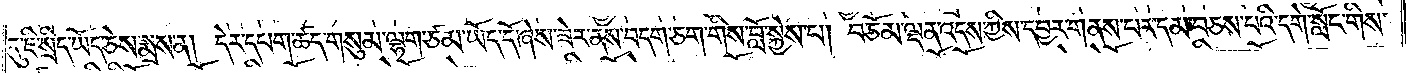དུ་ཇི་སྲིད་ཡོད་ཅེས་སྨྲས་ན། དེར་དཔག་ཚད་གསུམ་ལྷག་ཙམ་ཡོད་དོ་ཞེས་ཟེར་ནས་བདག་ཅག་གིས་བློ་སྐྱེས་པ། བཅོམ་ལྡན་འདས་ཀྱིས་དབྱར་གནས་པར་དམ་བཅས་པའི་དགེ་སློང་གིས་
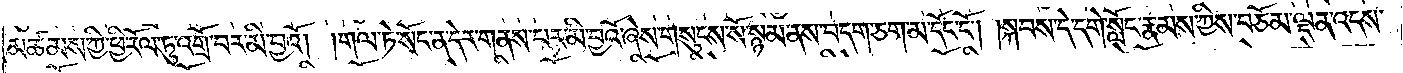མཚམས་ཀྱི་ཕྱི་རོལ་ཏུ་འགྲོ་བར་མི་བྱའོ། །གལ་ཏེ་སོང་ན་དེར་གནས་པར་མི་བྱའོ་ཞེས་གསུངས་སོ་སྙམ་ནས་བདག་ཅག་མ་དོང་ངོ༌། །སྐབས་དེ་དགེ་སློང་རྣམས་ཀྱིས་བཅོམ་ལྡན་འདས་
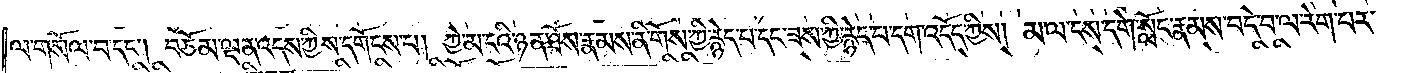ལ་གསོལ་བ་དང༌། བཅོམ་ལྡན་འདས་ཀྱིས་དགོངས་པ། ཀྱེ་མ་ངའི་ཉན་ཐོས་རྣམས་ནི་གོས་ཀྱི་རྙེད་པ་དང་ཟས་ཀྱི་རྙེད་པ་དག་འདོད་ཀྱིས། མ་ལ་ངས་དགེ་སློང་རྣམས་བདེ་བ་ལ་རེག་པར་
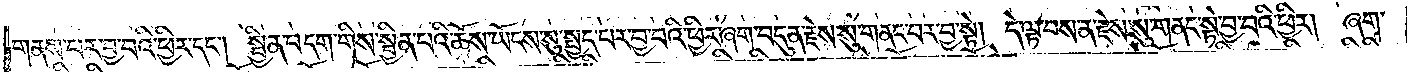གནས་པར་བྱ་བའི་ཕྱིར་དང༌། སྦྱིན་བདག་གིས་སྦྱིན་པའི་ཆོས་ཡོངས་སུ་སྤྱད་པར་བྱ་བའི་ཕྱིར་ཞག་བདུན་རྗེས་སུ་གནང་བར་བྱ་སྟེ། དེ་ལྟ་བས་ན་རྗེས་སུ་གནང་སྟེ་བྱ་བའི་ཕྱིར། ཞག་
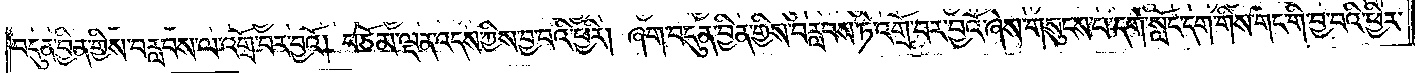བདུན་བྱིན་གྱིས་བརླབས་ལ་འགྲོ་བར་བྱའོ། བཅོམ་ལྡན་འདས་ཀྱིས་བྱ་བའི་ཕྱིར། ཞག་བདུན་བྱིན་གྱིས་བརླབས་ཏེ་འགྲོ་བར་བྱའོ་ཞེས་གསུངས་པ་དགེ་སློང་དག་གིས་གང་གི་བྱ་བའི་ཕྱིར་
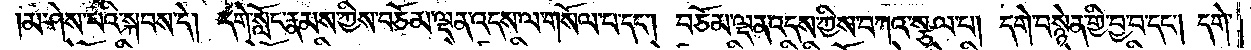མ་ཤེས་པའི་སྐབས་དེ། དགེ་སློང་རྣམས་ཀྱིས་བཅོམ་ལྡན་འདས་ལ་གསོལ་པ་དང༌། བཅོམ་ལྡན་འདས་ཀྱིས་བཀའ་སྩལ་པ། དགེ་བསྙེན་གྱི་བྱ་བ་དང༌། དགེ་
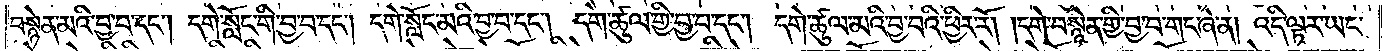བསྙེན་མའི་བྱ་བ་དང༌། དགེ་སློང་གི་བྱ་བ་དང༌། དགེ་སློང་མའི་བྱ་བ་དང༌། དགེ་ཚུལ་གྱི་བྱ་བ་དང༌། དགེ་ཚུལ་མའི་བྱ་བའི་ཕྱིར་རོ། །དགེ་བསྙེན་གྱི་བྱ་བ་གང་ཞེ་ན། འདི་ལྟར་ཡང་
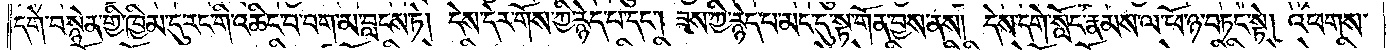དགེ་བསྙེན་གྱི་ཁྱིམ་དུ་རང་གི་འཆིང་བ་བག་མ་བླངས་ཏེ། དེས་དེར་གོས་ཀྱི་རྙེད་པ་དང༌། ཟས་ཀྱི་རྙེད་པ་མང་དུ་སྟ་གོན་བྱས་ནས། དེས་དགེ་སློང་རྣམས་ལ་ཕོ་ཉ་བཏང་སྟེ། འཕགས་
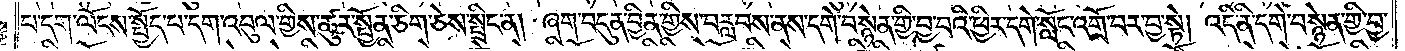པ་དག་ལོངས་སྤྱོད་པ་དག་འབུལ་གྱིས་ཚུར་སྤྱོན་ཅིག་ཅེས་སྤྲིང་ན། ཞག་བདུན་བྱིན་གྱིས་བརླབས་ནས་དགེ་བསྙེན་གྱི་བྱ་བའི་ཕྱིར་དགེ་སློང་འགྲོ་བར་བྱ་སྟེ། འདི་ནི་དགེ་བསྙེན་གྱི་བྱ་
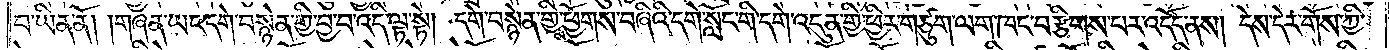བ་ཡིན་ནོ། །གཞན་ཡང་དགེ་བསྙེན་གྱི་བྱ་བ་འདི་ལྟ་སྟེ། དགེ་བསྙེན་གྱིས་ཕྱོགས་བཞིའི་དགེ་སློང་གི་དགེ་འདུན་གྱི་ཕྱིར་གཙུག་ལག་ཁང་བརྩིགས་པར་འདོད་ནས། དེས་དེར་གོས་ཀྱི་
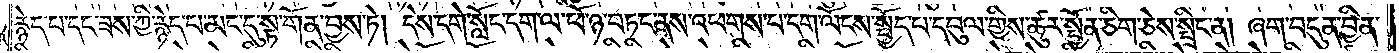རྙེད་པ་དང་ཟས་ཀྱི་རྙེད་པ་མང་དུ་སྟ་གོན་བྱས་ཏེ། དེས་དགེ་སློང་དག་ལ་ཕོ་ཉ་བཏང་ནས་འཕགས་པ་དག་ལོངས་སྤྱོད་པ་དབུལ་གྱིས་ཚུར་སྤྱོན་ཅིག་ཅེས་སྤྲིང་ན། ཞག་བདུན་བྱིན་
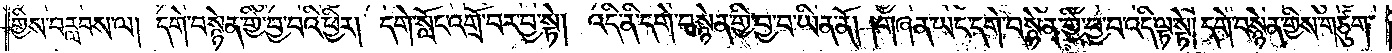གྱིས་བརླབས་ལ། དགེ་བསྙེན་གྱི་བྱ་བའི་ཕྱིར། དགེ་སློང་འགྲོ་བར་བྱ་སྟེ། འདི་ནི་དགེ་བསྙེན་གྱི་བྱ་བ་ཡིན་ནོ། །གཞན་ཡང་དགེ་བསྙེན་གྱི་བྱ་བ་འདི་ལྟ་སྟེ། དགེ་བསྙེན་གྱིས་གཙུག་
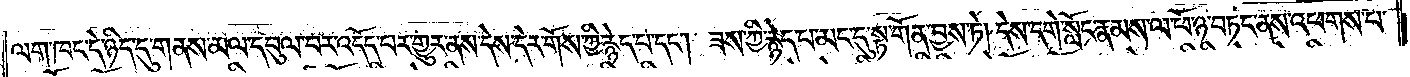ལག་ཁང་དེ་ཉིད་དུ་གནས་མལ་དབུལ་བར་འདོད་པར་གྱུར་ནས་དེས་དེར་གོས་ཀྱི་རྙེད་པ་དང༌། ཟས་ཀྱི་རྙེད་པ་མང་དུ་སྟ་གོན་བྱས་ཏེ། དེས་དགེ་སློང་རྣམས་ལ་ཕོ་ཉ་བཏང་ནས་འཕགས་པ་
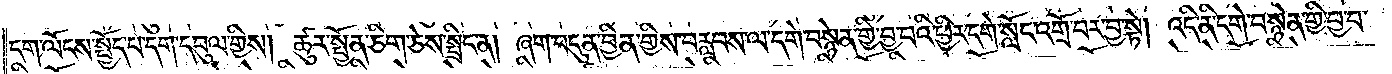དག་ལོངས་སྤྱོད་པ་དག་དབུལ་གྱིས། ཚུར་སྤྱོན་ཅིག་ཅེས་སྤྲིང་ན། ཞག་བདུན་བྱིན་གྱིས་བརླབས་ལ་དགེ་བསྙེན་གྱི་བྱ་བའི་ཕྱིར་དགེ་སློང་འགྲོ་བར་བྱ་སྟེ། འདི་ནི་དགེ་བསྙེན་གྱི་བྱ་བ་
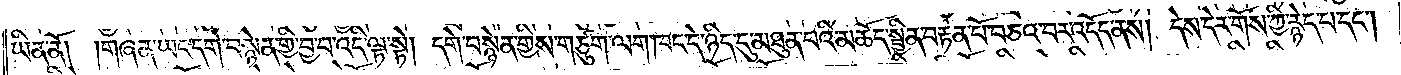ཡིན་ནོ། །གཞན་ཡང་དགེ་བསྙེན་གྱི་བྱ་བ་འདི་ལྟ་སྟེ། དགེ་བསྙེན་གྱིས་གཙུག་ལག་ཁང་དེ་ཉིད་དུ་མཐུན་པའི་མཆོད་སྦྱིན་བརྟན་པོ་བཅའ་བར་འདོད་ནས། དེས་དེར་གོས་ཀྱི་རྙེད་པ་དང༌།
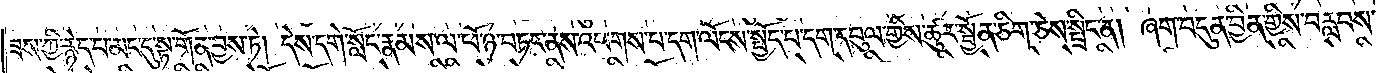ཟས་ཀྱི་རྙེད་པ་མང་དུ་སྟ་གོན་བྱས་ཏེ། དེས་དགེ་སློང་རྣམས་ལ་ཕོ་ཉ་བཏང་ནས་འཕགས་པ་དག་ལོངས་སྤྱོད་པ་དག་དབུལ་གྱིས་ཚུར་སྦྱོན་ཅིག་ཅེས་སྤྲིང་ན། ཞག་བདུན་བྱིན་གྱིས་བརླབས་
